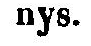nys.
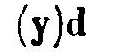(y)d
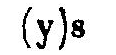(y)s
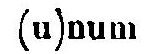(u)num
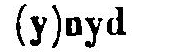(y)nyd
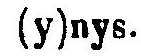(y)nys.
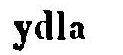ydla
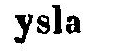ysla
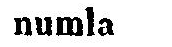numla
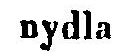nydla
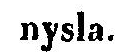nysla.
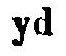yd
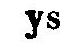ys
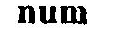num
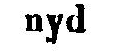nyd
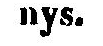nys.
